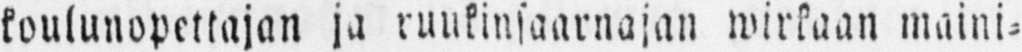koulunopettajan ja ruukinsaarnajan wirkaan maini-
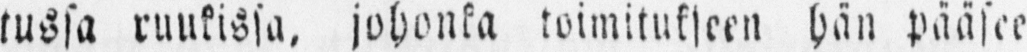tussa ruukissa, johonka toimitukseen hän pääsee
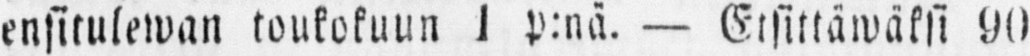ensitulewan toukokuun 1 p:nä. — Etsittäwäksi 90
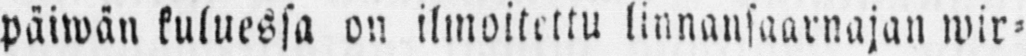päiwän kuluessa on ilmoitettu linnansaarnajan wir-
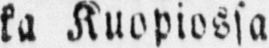ka Kuopiossa.
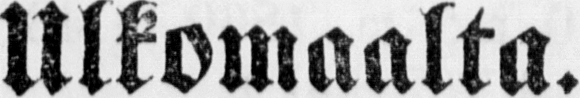Ulkomaalta.
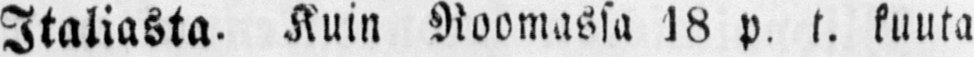Italiasta. Kuin Roomassa 18 p. t. kuuta
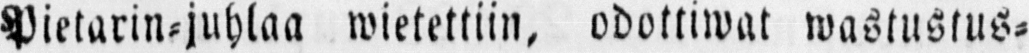Pietarin-juhlaa wietettiin, odottiwat wastustus-
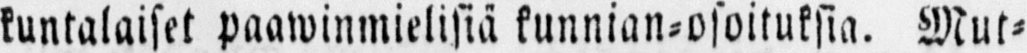kuntalaiset paawinmielisiä kunnian-osoituksia. Mut-
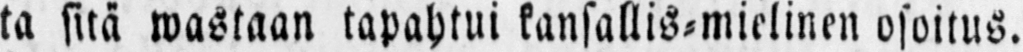ta sitä wastaan tapahtui kansallis-mielinen osoitus.
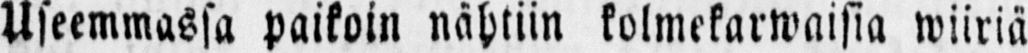Useemmassa paikoin nähtiin kolmekarwaisia wiiriä
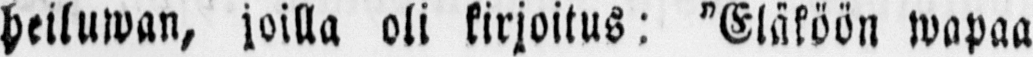heiluwan, joilla oli kirjoitus: "Eläköön wapaa
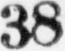38
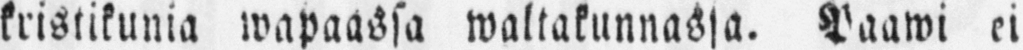kristikunia wapaassa waltakunnassa. Paawi ei
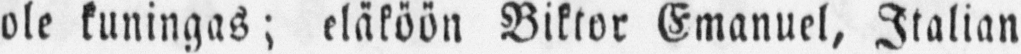ole kuningas; eläköön Viktor Emanuel, Italian
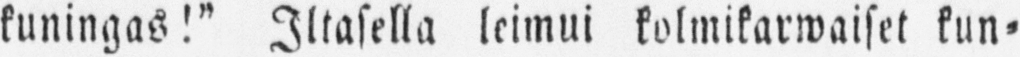kuningas!" Iltasella leimui kolmikarwaiset kun-
